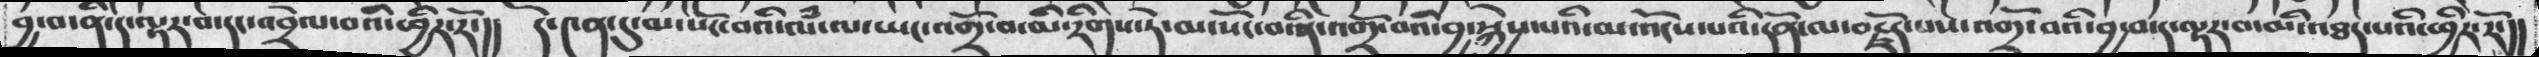བྱ་བ་ནི་དེ་ལྟར་བ་དང་འབྲེལ་བའི་ཕྱིར་རོ་།།  དེ་༤ན་དུ་མ་སོང་བའི་ལཾ་ལ་ཡང་འགྲོ་བ་མི་རིགས་ཏེ་མ་སོང་བ་ནི་འགྲོ་བའི་བྱ་སྐྱེས་པའི་མ་འོངས་པའི་དོན་ལ་བརྗོད་པས་འགྲོ་བའི་བྱ་བ་ད་ལྟ་བ་མི་འཐད་པའི་ཕྱིར་རོ་།།
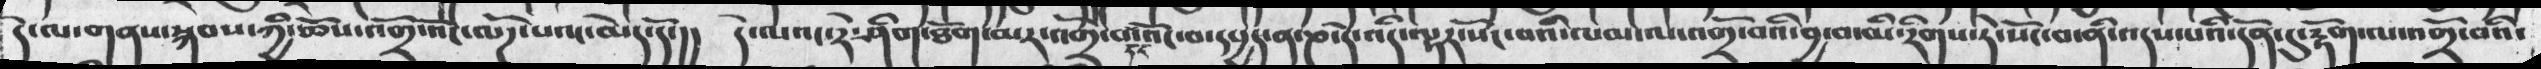དེ་ལ་གནས་སྐབས་ཀྱི་ཆོས་འགྲོ་འོང་ལོཌ་པའང་མེད་དོ་།།  དེ་ལའང་རེ་ཤིག་ཐོག་མར་འགྲོ་བ་དང་འོང་བ་དཔྱད་ན་ཎ་དེ་འདི་ལྟར་སོང་བའི་ལམ་ལ་འགྲོ་བའི་བྱ་བ་མི་རིགས་ཏེ་སོང་བ་ནི་འདས་པའི་དོན་དུ་རྟོག་ལ་འགྲོ་བའི་
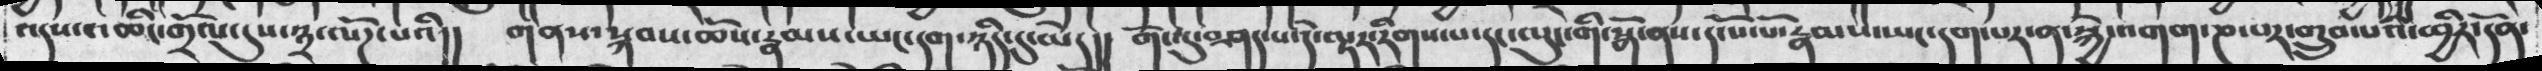འདས་འཆིང་གྲོལ་དུས་༣་ལོཌ་པའི།།  གནས་སྐབས་ཆོས་རྣམས་ཡང་དག་ཉིད་དུ་མེད།།  གོང་དུ་བཤད་པ་དེ་ལྟར་རིགས་པ་དང་ལུང་གི་སྒོ་ནས་དངོས་པོ་རྣམས་ཡང་དག་པར་ན་སྐྱེ་འགག་ཎ་པར་གྲུབ་པའི་ཕྱིར་དོན་
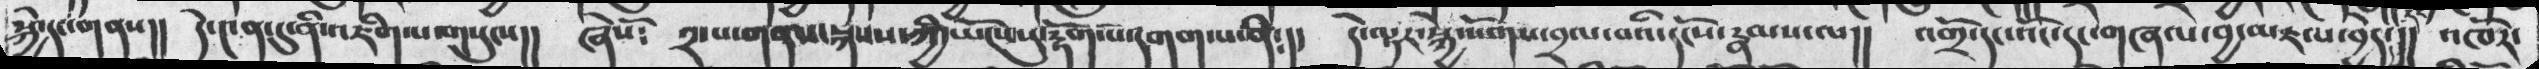སྐྱེ་དང་གནས་།།   དེ་༤ན་དུ་ནི་འཇིག་པ་གསུངས།།  ཞེསོ༴   ༢་པ་གནས་སྐབས་ཀྱི་ཡོངས་སུ་རྟོག་པ་དགག་པ་ནི༴།།  དེ་ལྟར་སྐྱེ་སོགས་བྲལ་བའི་དངོས་རྣམས་ལ།།   འགྲོ་དང་འོང་དང་གཞལ་བྱ་འཇལ་བྱེད་།།  འཁོར་
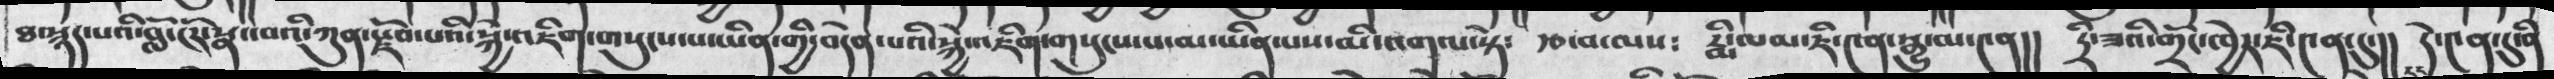ཐ་སྙད་པའི་བློ་ངོར་སྣང་བའི་ཀུན་རྫོབ་པའི་སྐྱེ་འཇིག་གསུངས་པ་ཡིན་གྱི་བདེན་པའི་སྐྱེ་འཇིག་གསུངས་པ་མ་ཡིན་པས་མི་འགལ་སྟེ༴   རྩ་བ་ལས༴  རྨི་ལམ་ཇི་༤ན་སྒྱུ་མ་༤ན།།  དྲི་ཟའི་གྲོར་ཁྱེར་ཇི་༤ན་དུ་།།   དེ་༤ན་དུ་ནི
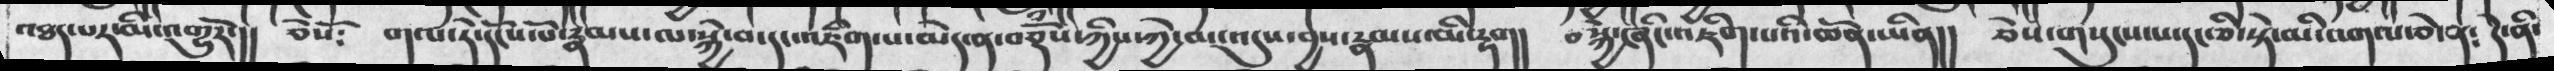འཐད་པར་མི་འགྱུརོ་།།  ཅེསོ༴  གལ་ཏེ་དངོས་པོ་རྣམས་མ་སྐྱེ་བ་དང་འཇིག་པ་མེད་ན་བཅྡོྃྃས་ཀྱིས་ཀྱེ་མ་འདུས་བྱས་རྣམས་མི་རྟག།   བསྐྱེ་ཞིང་འཇིག་པའི་ཆོས་ཡིན།།    ཅེས་གསུངས་པ་དང་མི་འགལ་ཅེ་ན༴   དེ་ནི་
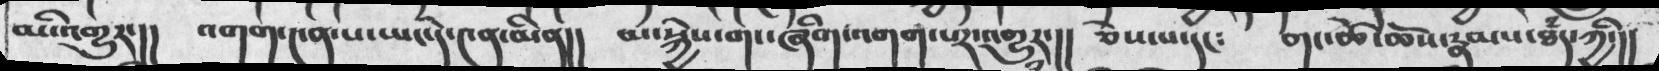མི་འགྱུར་།།   འགག་༤ན་པ་ཡང་དེ་༤ན་མིན།།   མ་སྐྱེས་གང་ཞིག་འགག་པར་འགྱུར་།།   ཅེས་པ་དང༴  གང་ཚེ་ཆོས་རྣམས་ཐཾད་ཀྱི་།།
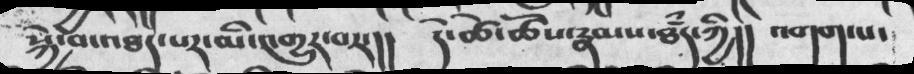སྐྱེ་བ་འཐད་པར་མི་འགྱུར་བར་།།   དེ་ཚེ་ཆོས་རྣམས་ཐཾད་ཀྱི།།   འགག་པ་
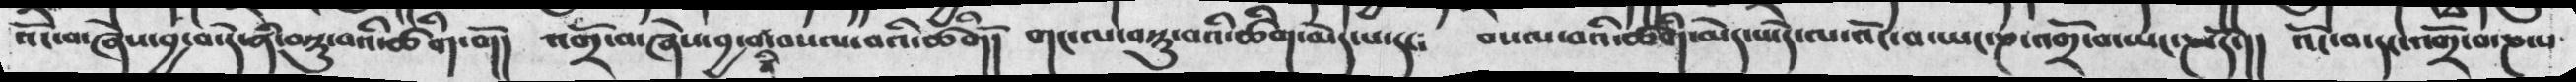འོང་བ་ཞེས་བྱ་བ་དེ་ནི་བསྟུ་བའི་ཚིགབོ།།  འགྲོ་བ་ཞེས་བྱ་བའི་བསལ་བའི་ཚིག།   གང་ལ་བསྟུ་བའི་ཚིག་མེད་པ་དང༴   བསལ་བའི་ཚིག་མེད་ཡོད་ལ་འོང་བ་ཡང་ཎ་འགྲོ་བ་ཡང་སྤོར་།།  འོང་བ་དང་འགྲོ་བ་ཎ་པ་
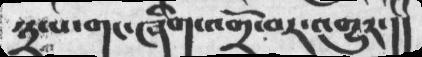༣་པ་གང་ཞིག་འགྲོ་བར་འགྱུར་།།
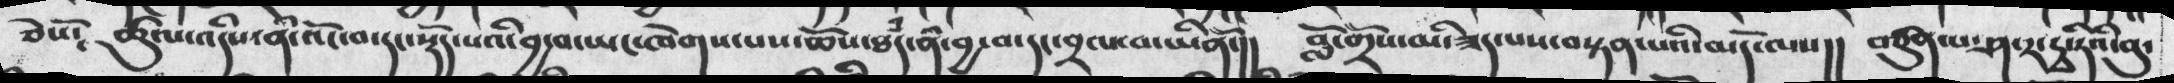ཅེསོ༴ ཚུལ་འདིས་ནི་འོང་བ་དང་སྡོད་པའི་བྱ་བ་ཡང་ཁེགས་པས་ཆོས་ཐཾད་ནི་བྱ་བ་དང་བྲལ་བ་ཡིནོ་།། བླ་ོགྲོས་མི་ཟད་པས་བསྟན་པའི་མདོ་ལས།། བཙུན་པ་ཤ་ར་དྭ་ཏའི་བུ་
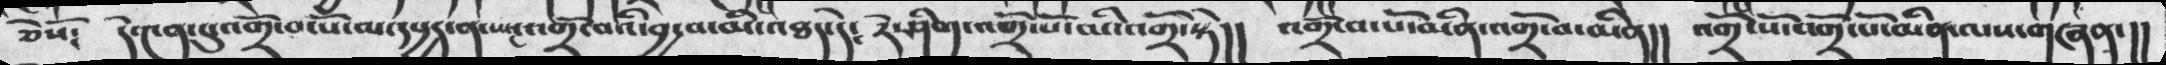ཅེསོ༴  དེ་༤ན་དུ་འགྲོ་བ་པོ་མ་དཔྱད་ན་ཡང་འགྲོ་བའི་བྱ་བ་མི་འཐད་དེ༴  རེ་ཤིག་འགྲོ་པོ་མི་འགྲོ་སྟེ།།  འགྲོ་བ་པོ་མིན་འགྲོ་བ་མིན།།   འགྲོ་པོ་འགྲོ་པོ་མིན་ལས་གཞན་།།
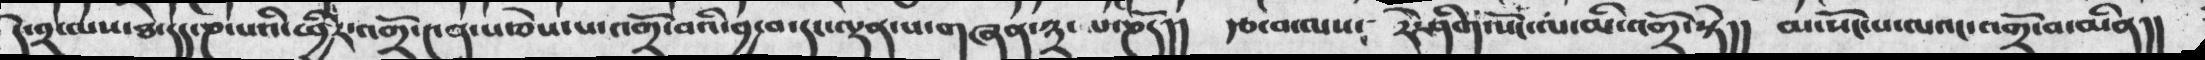དེ་༢་ལས་ཐ་དད་ཎ་པའི་ཕྱིར་འགྲོ་༤ན་པ་ཅེས་པ་འགྲོ་བའི་བྱ་བ་དང་ལྡན་པ་གཞན་༣་པ་ཎདོ།། རྩ་བ་ལས༴ རེ་ཤིག་སོང་ལ་མི་འགྲོ་སྟེ།། མ་སོང་པ་ལའང་འགྲོ་བ་མིན།།
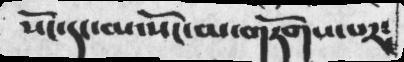སོང་དང་མ་སོང་མ་གཏོགས་པར༴
